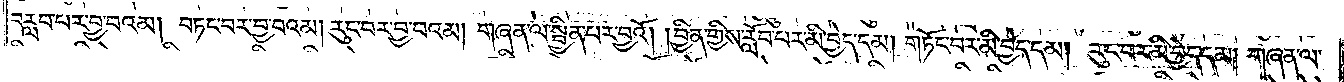བརླབ་པར་བྱ་བའམ། བཏང་བར་བྱ་བའམ། རུང་བར་བྱ་བའམ། གཞན་ལ་སྦྱིན་པར་བྱའོ། །བྱིན་གྱིས་རློབ་པར་མི་བྱེད་དམ། གཏོང་བར་མི་བྱེད་དམ། རུང་བར་མི་བྱེད་དམ། གཞན་ལ་
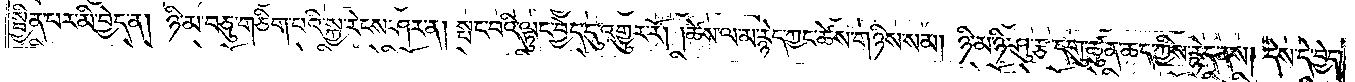སྦྱིན་པར་མི་བྱེད་ན། ཉི་མ་བཅུ་གཅིག་པའི་སྐྱ་རེངས་ཤར་ན། སྤང་པའི་ལྟུང་བྱེད་དུ་འགྱུར་རོ། །ཚེས་ལ་མ་རྙེད་ཀྱང་ཚེས་གཉིས་སམ། ཉི་མ་ཉི་ཤུ་རྩ་དགུ་ཚུན་ཆད་ཀྱིས་རྙེད་ནས། དེས་དེ་བྱེད་
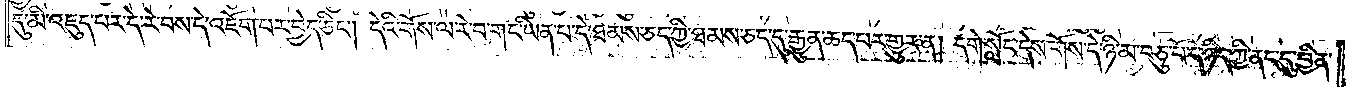དུ་མི་འཇུད་པར་དེ་རེ་བས་དེ་འཇོག་པར་བྱེད་ཅིང༌། དེའི་གོས་ལ་རེ་བ་གང་ཡིན་པ་དེ་ཐམས་ཅད་ཀྱི་ཐམས་ཅད་དུ་རྒྱུན་ཆད་པར་གྱུར་ན། དགེ་སློང་དེས་གོས་དེ་ཉི་མ་བཅུ་པོ་དེ་ཉིད་ཀྱི་ནང་དུ་བྱིན་
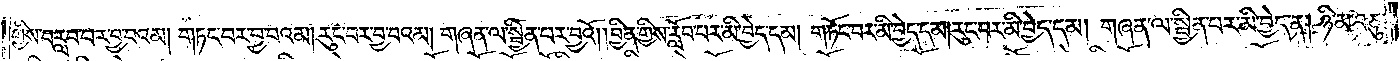གྱིས་བརླབ་པར་བྱ་བའམ། གཏང་བར་བྱ་བའམ། རུང་བར་བྱ་བའམ། གཞན་ལ་སྦྱིན་པར་བྱའོ། །བྱིན་གྱིས་རློབ་པར་མི་བྱེད་དམ། གཏོང་བར་མི་བྱེད་དམ། རུང་བར་མི་བྱེད་དམ། གཞན་ལ་སྦྱིན་པར་མི་བྱེད་ན། ཉི་མ་བཅུ་
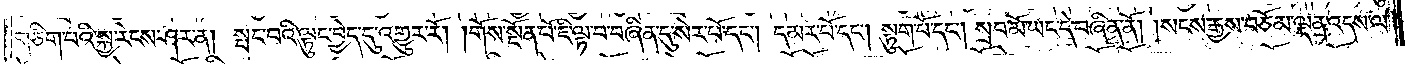གཅིག་པའི་སྐྱ་རེངས་ཤར་ན། སྤང་བའི་ལྟུང་བྱེད་དུ་འགྱུར་རོ། །གོས་སྔོན་པོ་ཇི་ལྟ་བ་བཞིན་དུ་སེར་པོ་དང༌། དམར་པོ་དང༌། སྟུག་པོ་དང༌། སྲབ་མོ་ཡང་དེ་བཞིན་ནོ། །སངས་རྒྱས་བཅོམ་ལྡན་འདས་ལ་
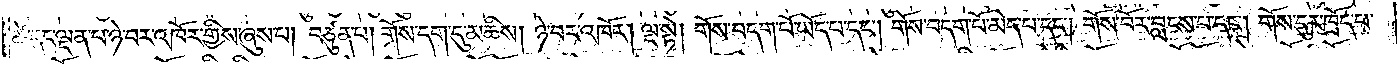ཚེ་དང་ལྡན་པ་ཉེ་བར་འཁོར་གྱིས་ཞུས་པ། བཙུན་པ། གོས་དག་དུ་མཆིས། ཉེ་བར་འཁོར། ལྔ་སྟེ། གོས་བདག་པོ་ཡོད་པ་དང༌། གོས་བདག་པོ་མེད་པ་དང༌། གོས་པོར་བླངས་པ་དང༌། གོས་དུར་ཁྲོད་པ་
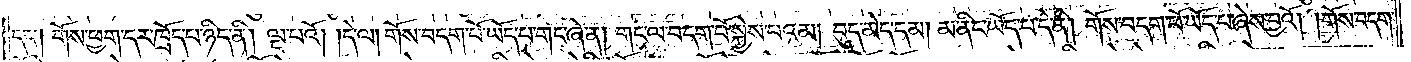དང༌། གོས་ཕྱག་དར་ཁྲོད་པ་ཉིད་ནི། ལྔ་པའོ། །དེ་ལ། གོས་བདག་པོ་ཡོད་པ་གང་ཞེ་ན། གང་ལ་བདག་པོ་སྐྱེས་པའམ། བུད་མེད་དམ། མ་ནིང་ཡོད་པ་དེ་ནི། གོས་བདག་པོ་ཡོད་པ་ཞེས་བྱའོ། །གོས་བདག་
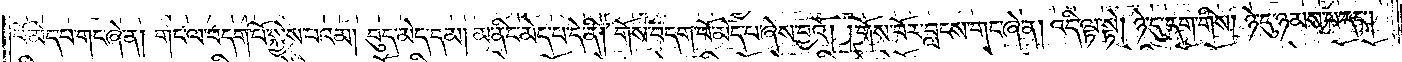པོ་མེད་པ་གང་ཞེ་ན། གང་ལ་བདག་པོ་སྐྱེས་པའམ། བུད་མེད་དམ། མ་ནིང་མེད་པ་དེ་ནི། གོས་བདག་པོ་མེད་པ་ཞེས་བྱའོ། །གོས་བོར་བླངས་གང་ཞེ་ན། འདི་ལྟ་སྟེ། ཉེ་དུ་དག་གིས། ཉེ་དུ་ཉམས་པ་དང༌།
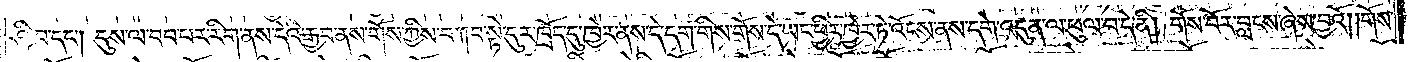ཤི་བ་དང༌། དུས་ལ་བབ་པར་རིག་ནས་དེའི་རྒྱབ་ནས་གོས་ཀྱིས་བཀའ་སྟེ་དུར་ཁྲོད་དུ་ཁྱེར་ནས་དེ་དག་གིས་གོས་དེ་ཡང་ཕྱིར་ཁྱེར་ཏེ་འོངས་ནས་དགེ་འདུན་ལ་ཕུལ་བ་དེ་ནི། གོས་བོར་བླངས་ཞེས་བྱའོ། །གོས་
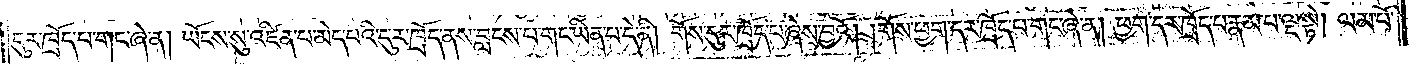དུར་ཁྲོད་པ་གང་ཞེ་ན། ཡོངས་སུ་འཛིན་པ་མེད་པའི་དུར་ཁྲོད་ནས་བླངས་པ་གང་ཡིན་པ་དེ་ནི། གོས་དུར་ཁྲོད་པ་ཞེས་བྱའོ། །གོས་ཕྱག་དར་ཁྲོད་པ་གང་ཞེ་ན། ཕྱག་དར་ཁྲོད་པ་རྣམ་པ་ལྔ་སྟེ། ལམ་པོ་
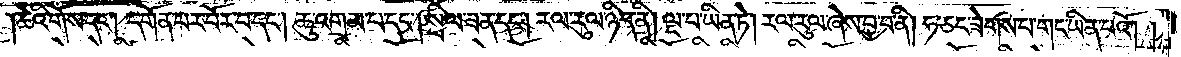ཆེའི་གོས་དང༌། དགོན་པར་བོར་བ་དང༌། ཆུ་འགྲམ་པ་དང༌། སྲིལ་ཟན་དང༌། རལ་རུལ་ཉིད་ནི། ལྔ་པ་ཡིན་ཏེ། རལ་རུལ་ཞེས་བྱ་བ་ནི། ཧ་ཅང་ཟེགས་པ་གང་ཡིན་པའོ། །
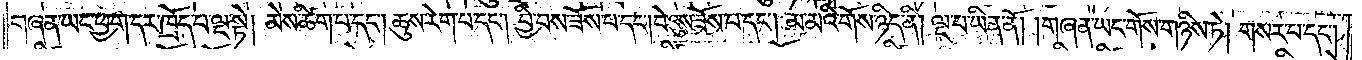གཞན་ཡང་ཕྱག་དར་ཁྲོད་པ་ལྔ་སྟེ། མེས་ཚིག་པ་དང༌། ཆུས་རེག་པ་དང༌། བྱི་བས་ཟོས་པ་དང༌། བེ་འུས་ཟོས་པ་དང༌། མ་མའི་གོས་ཉིད་ནི། ལྔ་པ་ཡིན་ནོ། །གཞན་ཡང་གོས་གཉིས་ཏེ། གསར་པ་དང༌།
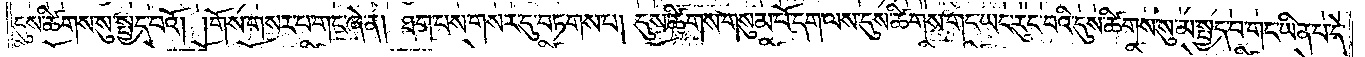དུས་ཚིགས་སུ་སྤྱད་པའོ། །གོས་གསར་པ་གང་ཞེ་ན། ཐག་པས་གསར་དུ་བཏགས་པ། དུས་ཚིགས་གསུམ་པོ་དག་ལས་དུས་ཚིགས་གང་ཡང་རུང་བའི་དུས་ཚིགས་སུ་མ་སྤྱད་པ་གང་ཡིན་པ་དེ་
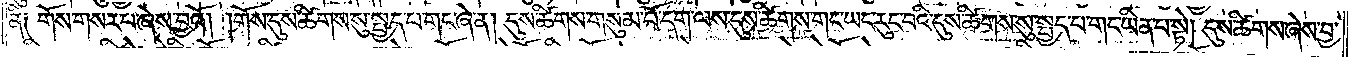ནི༑ གོས་གསར་པ་ཞེས་བྱའོ། །གོས་དུས་ཚིགས་སུ་སྤྱད་པ་གང་ཞེ་ན། དུས་ཚིགས་གསུམ་པོ་དག་ལས་དུས་ཚིགས་གང་ཡང་རུང་བའི་དུས་ཚིགས་སུ་སྤྱད་པ་གང་ཡིན་པ་སྟེ། དུས་ཚིགས་ཞེས་བྱ་
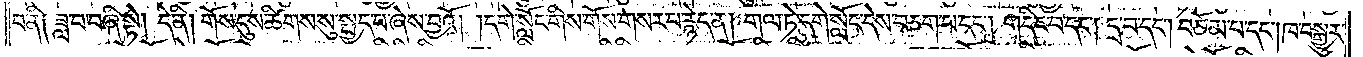བ་ནི༏ ཟླ་བ་བཞི་སྟེ། དེ་ནི། གོས་དུས་ཚིགས་སུ་སྤྱད་པ་ཞེས་བྱའོ། །དགེ་སློང་གིས་གོས་གསར་པ་རྙེད་ན། གལ་ཏེ་དགེ་སློང་དེས་བཅག་པ་དང༌། གདིང་བ་དང༌། དྲ་བ་དང༌། བཅོམ་པ་དང༌། ཁ་བསྒྱུར་
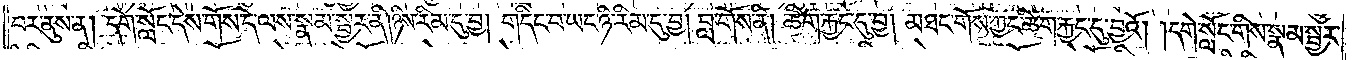བར་ནུས་ན། དགེ་སློང་དེས་གོས་དེ་ལས་སྣམ་སྦྱར་ནི། ཉིས་རིམ་དུ་བྱ། གདིང་བ་ཡང་ཉི་རིམ་དུ་བྱ། བླ་གོས་ནི། ཆིག་རྐྱང་དུ་བྱ། མཐང་གོས་ཀྱང་ཆིག་རྐྱང་དུ་བྱའོ། །དགེ་སློང་གིས་སྣམ་སྦྱར་
